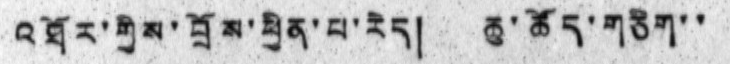འཐོར་གྱིས་བྲོས་ཕྱིན་པ་རེད། ཆུ་ཚོད་གཅིག་་
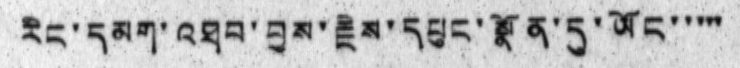རིང་དམག་འཐབ་བྱས་རྗེས་དཔུང་སྣོན་དུ་ཡོང་་་་་
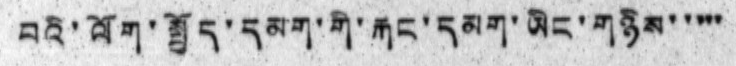བའི་ལོག་སྤྱོད་དམག་གི་རྐང་དམག་ཡིང་གཉིས་་་་་
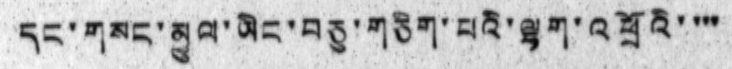དང་གསང་མྱུལ་ཡིང་བཅུ་གཅིག་པའི་ལྷག་འཕྲོའི་་་་
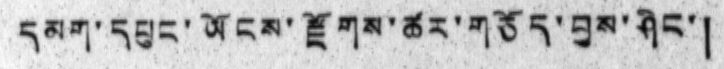དམག་དཔུང་ཡོངས་རྫོགས་ཚར་གཅོད་བྱས་ཤིང་།
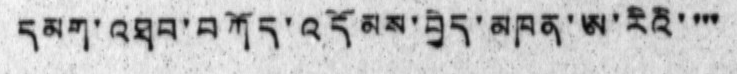དམག་འཐབ་བཀོད་འདོམས་བྱེད་མཁན་ཨ་རིའི་་་་
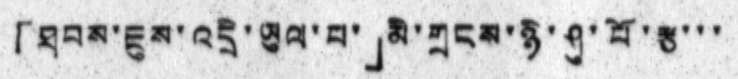「ཐབས་ཇུས་འདྲི་ཡུལ་བ་」མི་གྲངས་ཉི་ཤུ་པོ་རྩ་་་
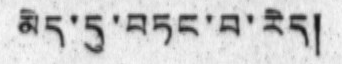མེད་དུ་བཏང་བ་རེད།
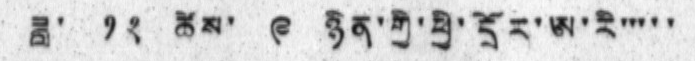ཟླ་ ༡༢ ཚེས་ ༩ ཉིན་གྱི་ཕྱི་དྲོར་ཨ་རི་་་་་
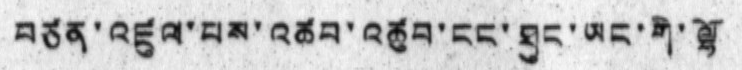བཙན་འཛུལ་པས་འཚབ་འཚུབ་ངང་ཐུང་ཡང་གི་ལྷོ
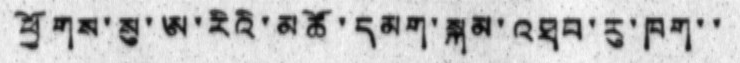ཕྱོགས་སུ་ཨ་རིའི་མཚོ་དམག་སྐམ་འཐབ་རུ་ཁག་་
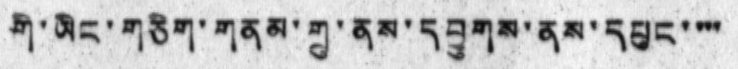གི་ཡིང་གཅིག་གནམ་གྲུ་ནས་དབྱུགས་ནས་དཔུང་་་་
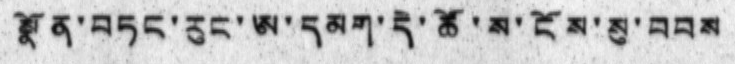སྣོན་བཏང་རུང་ཨ་དམག་དེ་ཚོ་ས་ངོས་སུ་བབས
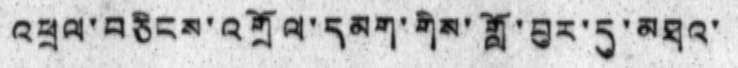འཕྲལ་བཅིངས་འགྲོལ་དམག་གིས་གློ་བུར་དུ་མཐའ་
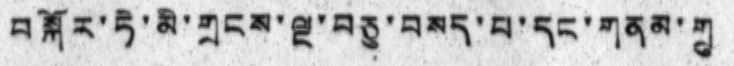བསྐོར་ཏེ་མི་གྲངས་ལྔ་བཅུ་བསད་པ་དང་གནམ་གྲུ
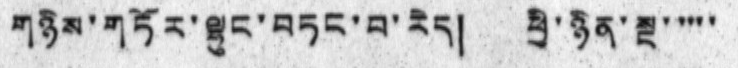གཉིས་གཏོར་ལྷུང་བཏང་བ་རེད། ཕྱི་ཉིན་སྔ་་་་་
